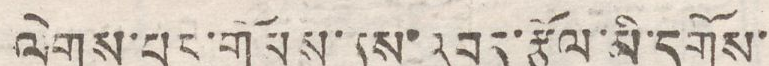ལེགས་པར་གོམས་ནས་འབད་རྩོལ་མི་དགོས་
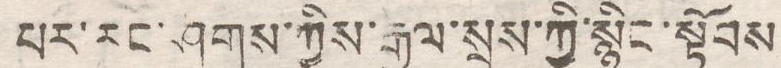པར་རང་ཤུགས་ཀྱིས་རྒྱལ་སྲས་ཀྱི་སྙིང་སྟོབས
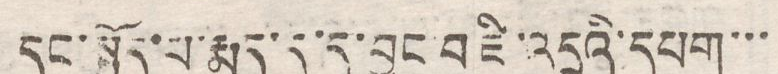དང་སྤྱོད་པ་རྨད་དུ་དུ་བྱུང་བ་ཇི་འདྲའི་དཔག་་་
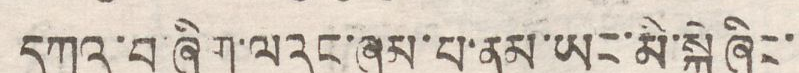དཀའ་བ་ཞིག་ལའང་ཞུམ་པ་ནམ་ཡང་མི་སྐྱེ ཞིང་
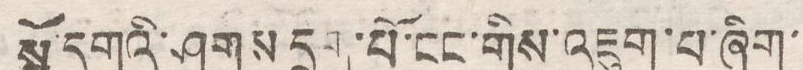སྤྲོ་དགའི་ཤུགས དྲག་པོ་ངང་གིས་འཇུག་པ་ཞིག་
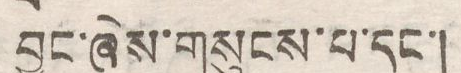བྱུང་ཞེས་གསུངས་པ་དང་།
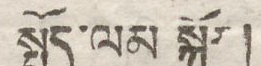སྤྱོད་ལམ སྐོར།
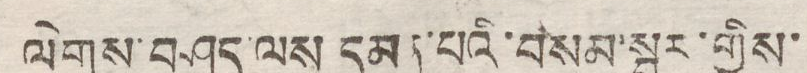ལེགས་བཤད་ལས དམན་པའི་བསམ་སྦྱར་གྱིས་
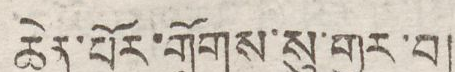ཆེན་པོར་གྲོགས་སུ་གྱུར་བ།
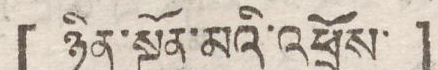[ ཉིན་སྔོན་མའི་འཕྲོས་ ]
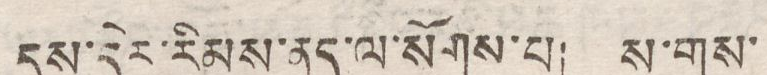དུས་དེར་རིམས་ནད་ལ་སོགས་པ། ས་གས་
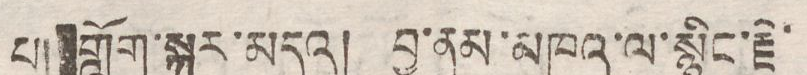པ། གློག་སྐར་མདའ། བྱ་ནམ་མཁའ་ལ་སྙིང་རྗེ་
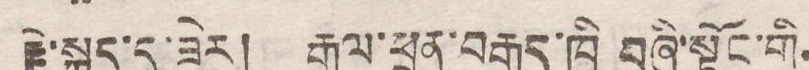རྗེ་སྐད་དུ་ཟེར། རྒྱལ་ཕྲན་བརྒྱད་ཁྲི བཞི་སྟོང་གི
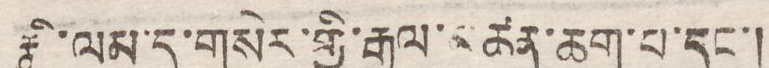རྨི་ལམ་དུ་གསེར་གྱི་རྒྱལ་མཚན་ཆག་པ་དང་།
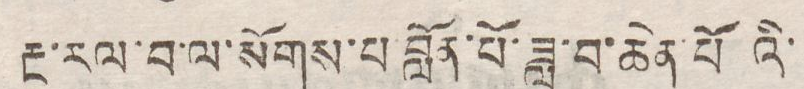རྔ་རལ་བ་ལ་སོགས་པ་བློན་པོ་ཟླ་བ་ཆེན་པོའི་
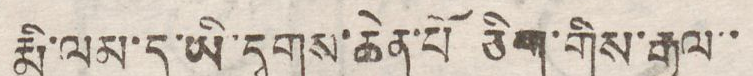རྨི་ལམ་དུ་ཡི་དྭགས་ཆེན་པོ ཅིག་གིས་རྒྱལ་་
